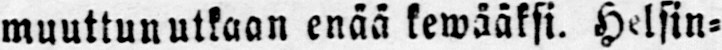muuttunutkaan enää kewääksi. Helsin-
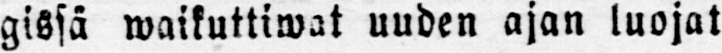gissä waikuttiwat uuden ajan luojat
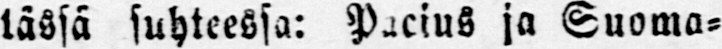tässä suhteessa: Pacius ja Suoma-
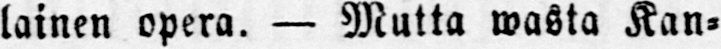lainen opera. — Mutta wasta Kan-
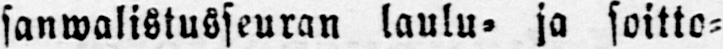sanwalistusseuran laulu- ja soitto-
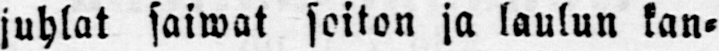juhlat sawat soiton ja laulun kan-
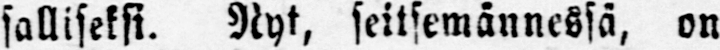salliseksi. Nyt, seitsemännessä, on
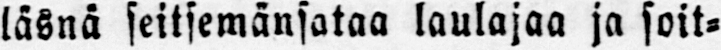läsnä seitsemänsataa laulajaa ja soit-
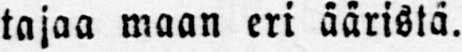tajaa maan eri ääristä.
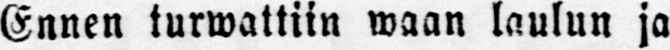Ennen turwattiin waan laulun ja
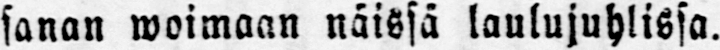sanan woimaan näissä laulujuhlissa.
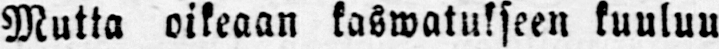Mutta oikeaan kaswatukseen kuuluu
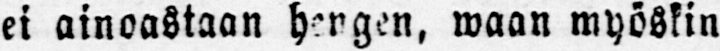ei ainoastaan hengen, waan myöskin
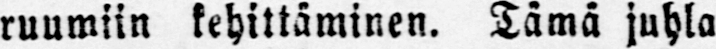ruumiin kehittäminen. Tämä juhla
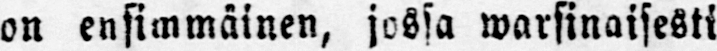on ensimmäinen, jossa warsinaisesti
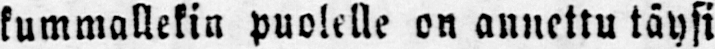kummallekin puolelle on annettu täysi
